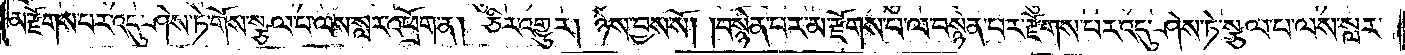མ་རྫོགས་པར་འདུ་ཤེས་ཏེ་གོས་སྩལ་པ་ལས་སླར་འཕྲོག་ན། ཅིར་འགྱུར། ཉེས་བྱས་སོ། །བསྙེན་པར་མ་རྫོགས་པ་ལ་བསྙེན་པར་རྫོགས་པར་འདུ་ཤེས་ཏེ་སྩལ་པ་ལས་སླར་
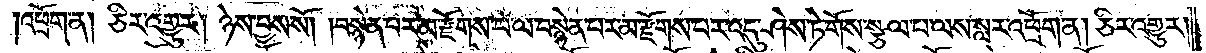འཕྲོག་ན། ཅིར་འགྱུར། ཉེས་བྱས་སོ། །བསྙེན་པར་མ་རྫོགས་པ་ལ་བསྙེན་པར་མ་རྫོགས་པར་འདུ་ཤེས་ཏེ་གོས་སྩལ་པ་ལས་སླར་འཕྲོག་ན། ཅིར་འགྱུར།
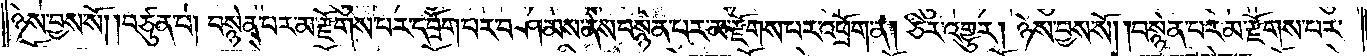ཉེས་བྱས་སོ། །བཙུན་པ། བསྙེན་པར་མ་རྫོགས་པར་དབྲོག་པར་བཤམས་ནས་བསྙེན་པར་མ་རྫོགས་པར་འཕྲོག་ན། ཅིར་འགྱུར། ཉེས་བྱས་སོ། །བསྙེན་པར་མ་རྫོགས་པར་
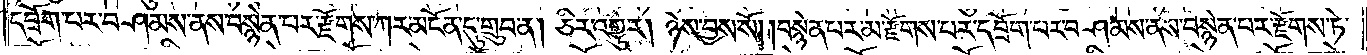དབྲོག་པར་བཤམས་ནས་བསྙེན་པར་རྫོགས་ཀར་མངོན་དུ་གྲུབ་ན། ཅིར་འགྱུར། ཉེས་བྱས་སོ། །བསྙེན་པར་མ་རྫོགས་པར་དབྲོག་པར་བཤམས་ནས་བསྙེན་པར་རྫོགས་ཏེ་
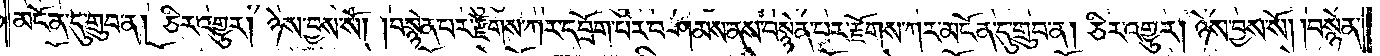མངོན་དུ་གྲུབ་ན། ཅིར་འགྱུར། ཉེས་བྱས་སོ། །བསྙེན་པར་རྫོགས་ཀར་དབྲོག་པར་བཤམས་ནས་བསྙེན་པར་རྫོགས་ཀར་མངོན་དུ་གྲུབ་ན། ཅིར་འགྱུར། ཉེས་བྱས་སོ། །བསྙེན་
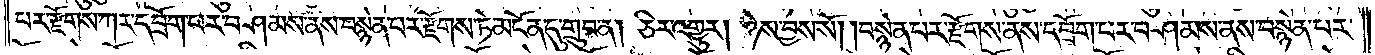པར་རྫོགས་ཀར་དབྲོག་པར་བཤམས་ནས་བསྙེན་པར་རྫོགས་ཏེ་མངོན་དུ་གྲུབ་ན། ཅིར་འགྱུར། ཉེས་བྱས་སོ། །བསྙེན་པར་རྫོགས་ནས་དབྲོག་པར་བཤམས་ནས་བསྙེན་པར་
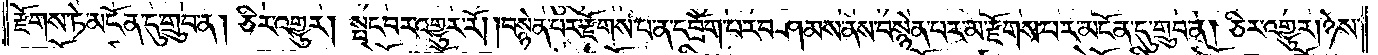རྫོགས་ཏེ་མངོན་དུ་གྲུབ་ན། ཅིར་འགྱུར། སྤང་བར་འགྱུར་རོ། །བསྙེན་པར་རྫོགས་པ་ན་དབྲོག་པར་བཤམས་ནས་བསྙེན་པར་མ་རྫོགས་པར་མངོན་དུ་གྲུབ་ན། ཅིར་འགྱུར། ཉེས་
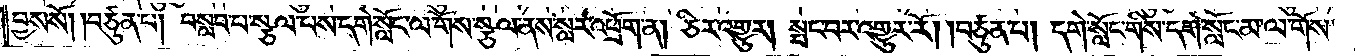བྱས་སོ། །བཙུན་པ། བསླབ་པ་སྩལ་པས་དགེ་སློང་ལ་གོས་སྩལ་ནས་སླར་འཕྲོག་ན། ཅིར་འགྱུར། སྤང་བར་འགྱུར་རོ། །བཙུན་པ། དགེ་སློང་གིས་དགེ་སློང་མ་ལ་གོས་
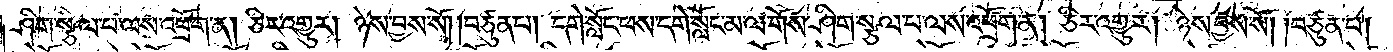ཤིག་སྩལ་པ་ལས་འཕྲོག་ན། ཅིར་འགྱུར། ཉེས་བྱས་སོ། །བཙུན་པ། དགེ་སློང་ཕས་དགེ་སློང་མ་ལ་གོས་ཤིག་སྩལ་པ་ལས་འཕྲོག་ན། ཅིར་འགྱུར། ཉེས་བྱས་སོ། །བཙུན་པ།
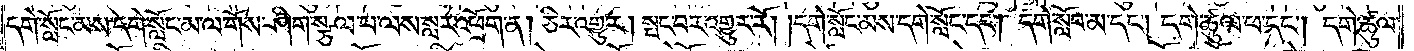དགེ་སློང་མས་དགེ་སློང་མ་ལ་གོས་ཤིག་སྩལ་པ་ལས་སླར་འཕྲོག་ན། ཅིར་འགྱུར། སྤང་བར་འགྱུར་རོ། །དགེ་སློང་མས་དགེ་སློང་དང༌། དགེ་སློང་མ་དང༌། དགེ་ཚུལ་ཕ་དང༌། དགེ་ཚུལ་
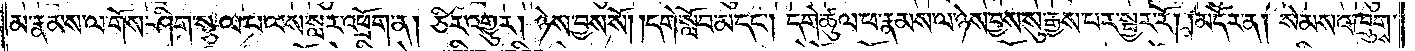མ་རྣམས་ལ་གོས་ཤིག་སྩལ་པ་ལས་སླར་འཕྲོག་ན། ཅིར་འགྱུར། ཉེས་བྱས་སོ། །དགེ་སློབ་མ་དང༌། དགེ་ཚུལ་ཕ་རྣམས་ལ་ཉེས་བྱས་སུ་རྒྱས་པར་སྦྱར་རོ།    །མདོར་ན། སེམས་འཁྲུགས་
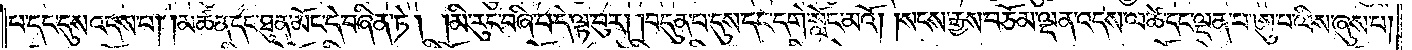པ་དང་དུས་འདས་པ། །མཚན་དང་ཐུན་མོང་དེ་བཞིན་ཏེ། །མི་རུང་བཞི་པ་དེ་ལྟ་བུར། །བདུན་པ་དུས་དང་དགེ་སློང་མའོ། །སངས་རྒྱས་བཅོམ་ལྡན་འདས་ལ་ཚེ་དང་ལྡན་པ་ཨུ་པ་ལིས་ཞུས་པ།
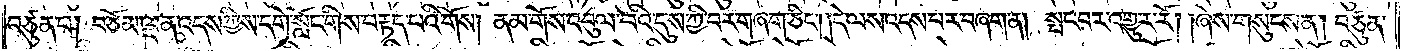བཙུན་པ། བཅོམ་ལྡན་འདས་ཀྱིས་དགེ་སློང་གིས་བརྟད་པའི་གོས། ནམ་གོས་འབུལ་བའི་དུས་ཀྱི་བར་གཞག་ཅིང༌། །དེ་ལས་འདས་པར་བཞག་ན། སྤང་བར་འགྱུར་རོ། །ཞེས་གསུངས་ན། བཙུན་
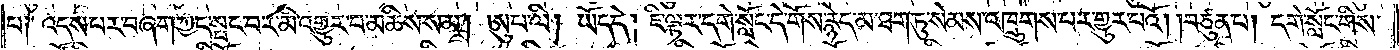པ༑ འདས་པར་བཞག་ཀྱང་སྤང་བར་མི་འགྱུར་བ་མཆིས་སམ། ཨུ་པ་ལི། ཡོད་དེ། ཇི་ལྟར་དགེ་སློང་དེ་གོས་རྙེད་མ་ཐག་ཏུ་སེམས་འཁྲུགས་པར་གྱུར་པའོ། །བཙུན་པ། དགེ་སློང་གིས་
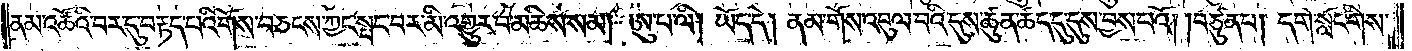ནམ་འཚོའི་བར་དུ་བརྟད་པའི་གོས་བཅངས་ཀྱང་སྤང་བར་མི་འགྱུར་བ་མཆིས་སམ། ཨུ་པ་ལི། ཡོད་དེ། ནམ་གོས་འབུལ་བའི་དུས་ཚུན་ཚད་དུ་དུས་བྱས་པའོ། །བཙུན་པ། དགེ་སློང་གིས་
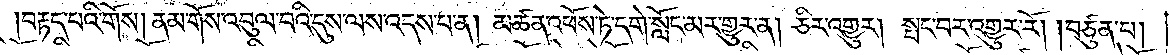།བརྟད་པའི་གོས། ནམ་གོས་འབུལ་བའི་དུས་ལས་འདས་པ་ན། མཚན་འཕོས་ཏེ་དགེ་སློང་མར་གྱུར་ན། ཅིར་འགྱུར། སྤང་བར་འགྱུར་རོ། །བཙུན་པ།
